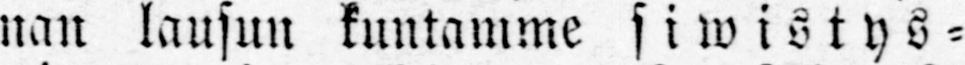nan lausun kuntamme siwistys-
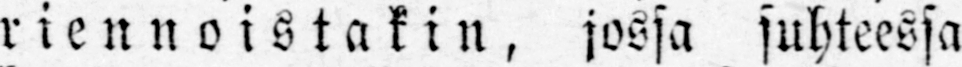riennoistakin, jossa suhteessa
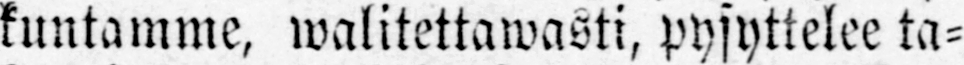kuntamme, walitettawasti, pysyttelee ta-
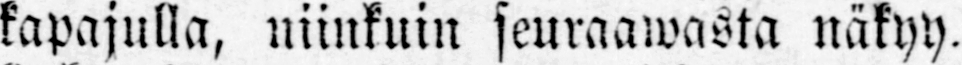kapajulla, niinkuin seuraawasta näkyy.
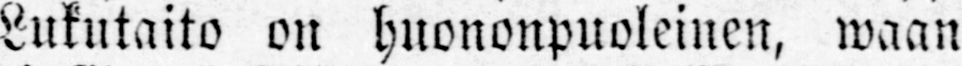Lukutaito on huononpuoleinen, waan
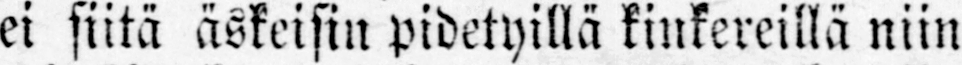ei siitä äskeisin pidetyillä kinkereillä niin
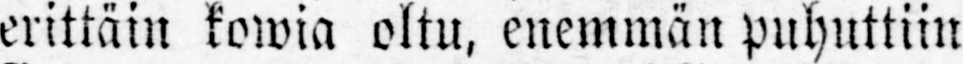erittäin kowia oltu, enemmän puhuttiin
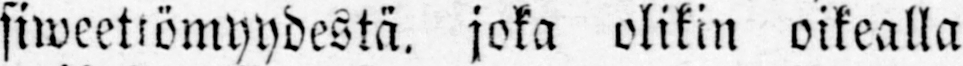siweettömyydestä, joka olikin oikealla
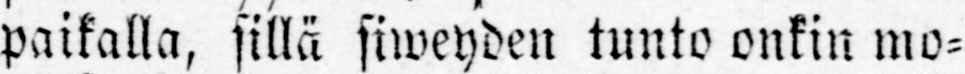paikalla, sillä siweyden tunto onkin mo-
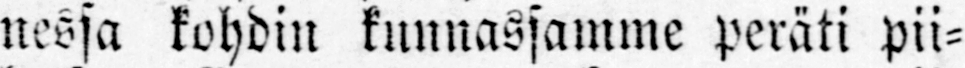nessa kohdin kunnassamme peräti pii-
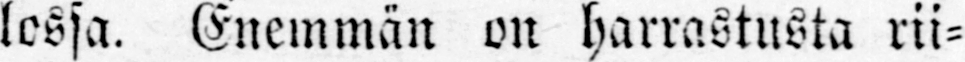lossa. Enemmän on harrastusta rii-
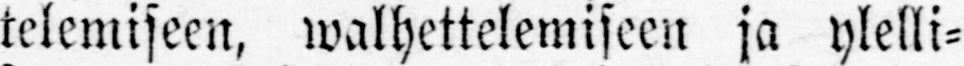telemiseen, walhettelemiseen ja ylelli-
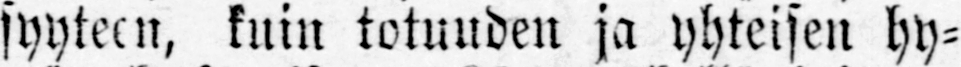syyteen, kuin totuuden ja yhteisen hy-
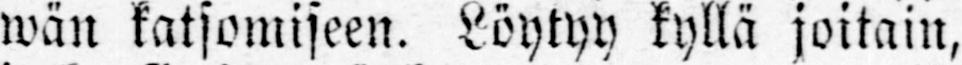wän katsomiseen. Löytyy kyllä joitain,
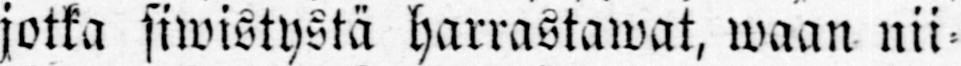jotka siwistystä harrastawat, waan nii-
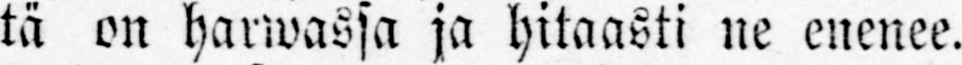tä on harwassa ja hitaasti ne enenee.
